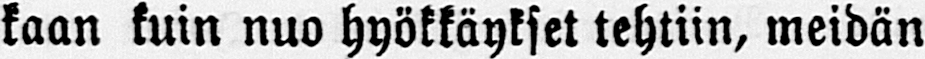kaan kuin nuo hyökkäykset tehtiin, meidän
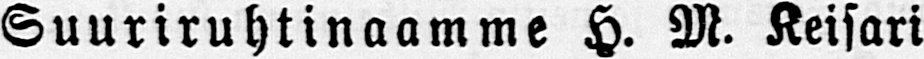Suuriruhtinaamme H. M. Keisari
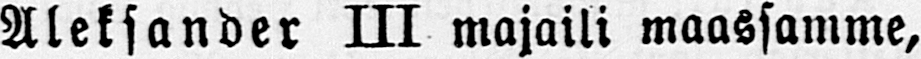Aleksander III majaili maassamme,
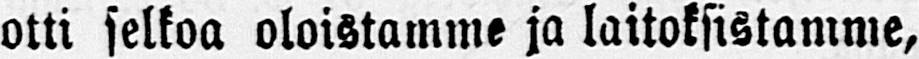otti selkoa oloistamme ja laitoksistamme,
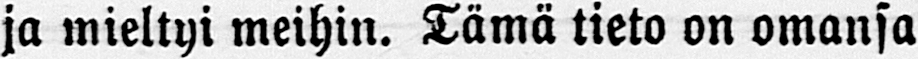ja mieltyi meihin. Tämä tieto on omansa
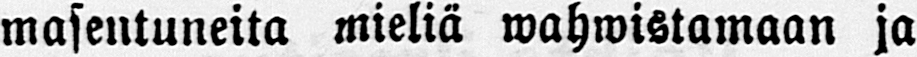masentuneita mieliä wahwistamaan ja
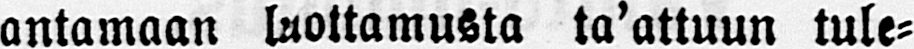antamaan luottamusta ta'attuun tule-
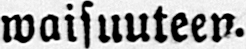waisuuteen.
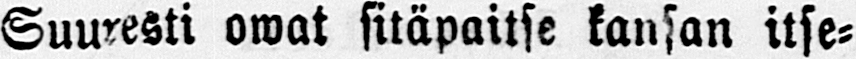Suuresti owat sitäpaitse kansan itse-
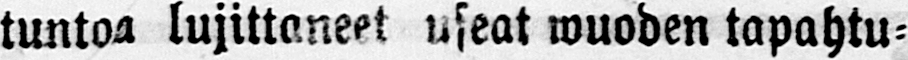tuntoa lujittaneet useat wuoden tapahtu-
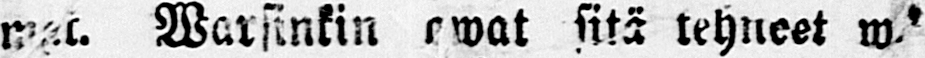mat. Warsinkin owat sitä tehneet w"
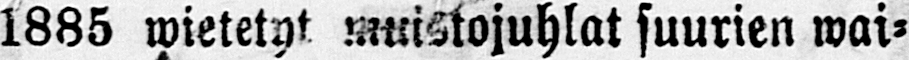1885 wietetyt muistojuhlat suurien wai-
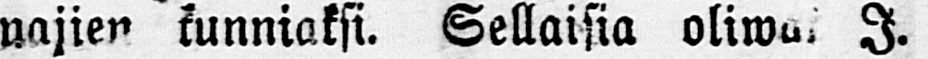najien kunniaksi. Sellaisia oliwat I.
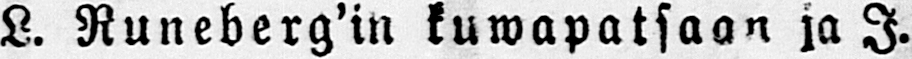L. Runeberg'in kuwapatsaan ja I.
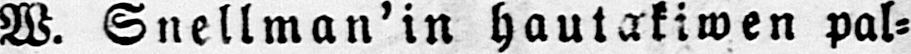W. Snellman'in hautwkiwen pal-
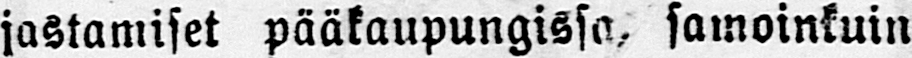jastamiset pääkaupungissa, samoinkuin
